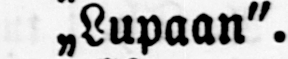„ Lupaan".
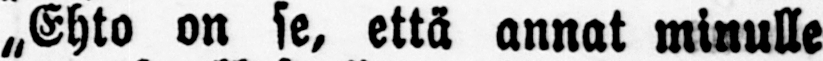„Ehto on se, että annat minulle
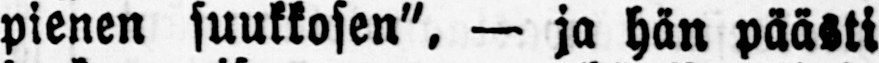pienen suukkosen", — ja hän päästi
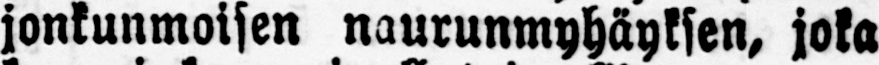jonkunmoisen naurunmyhäyksen, joka
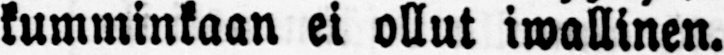kumminkaan ei ollut iwallinen.
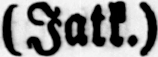(Jatk.)
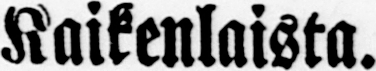Kaikenlaista.
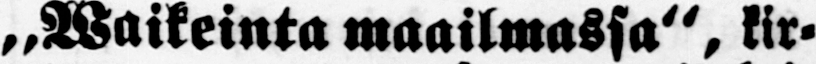„Waikeinta maailmassa", kir-
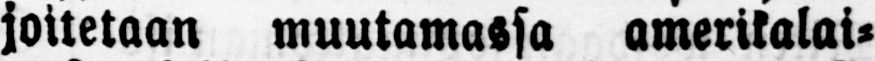joitetaan muutamassa amerikalai-
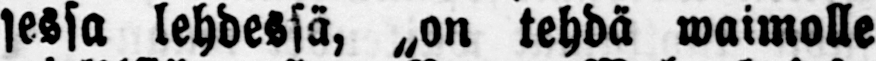sessa lehdessä, „on tehdä waimolle
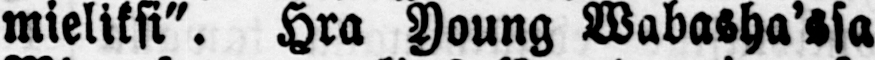mieliksi". Hra Young Wabasha'ssa
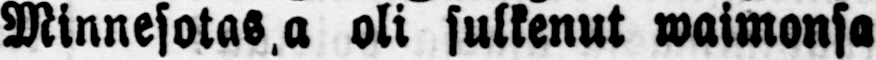Minnesotassa oli sulkenut waimonsa
